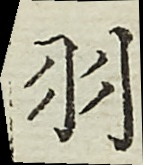羽
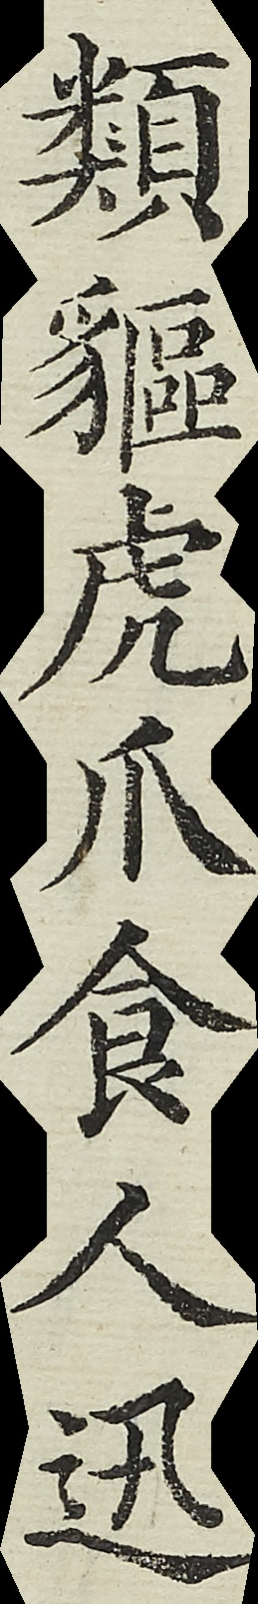類貙虎爪食人迅
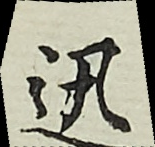迅
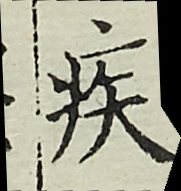疾
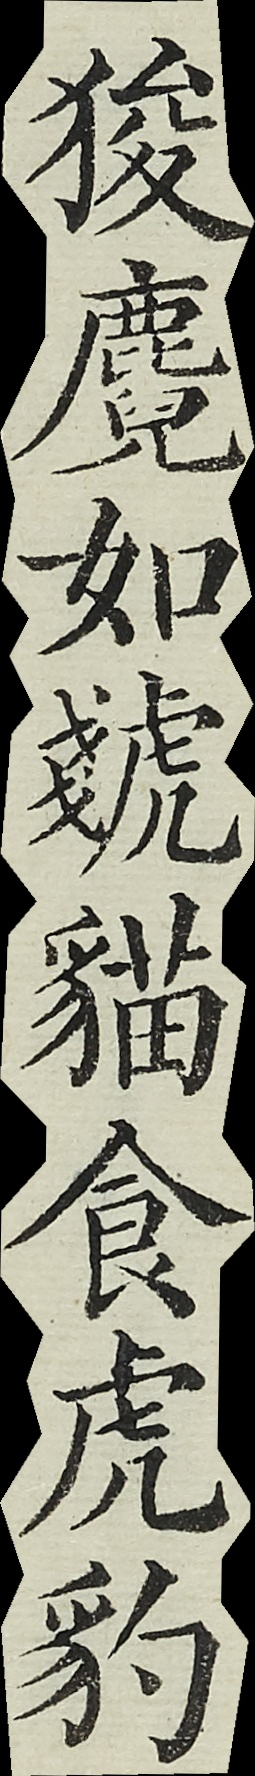狻麑如虦貓食虎豹
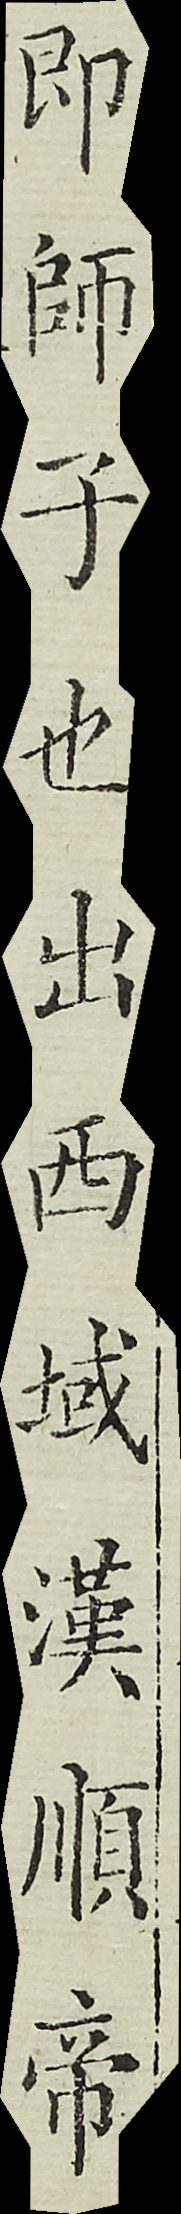即師子也出西域漢順帝
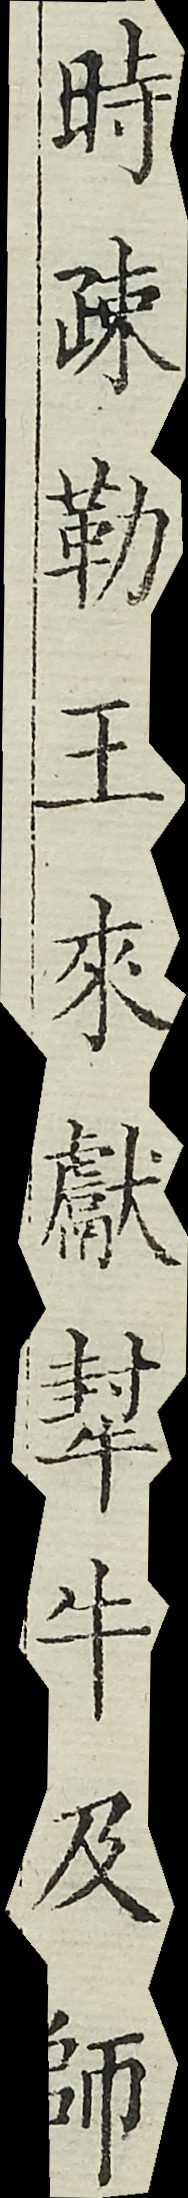時疏勒王來獻犎牛及師
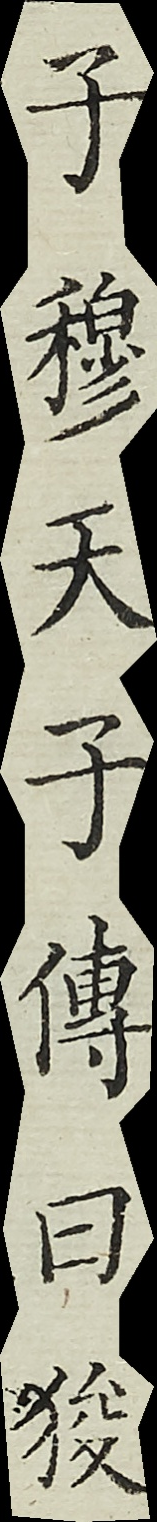子穆天子傳曰狻
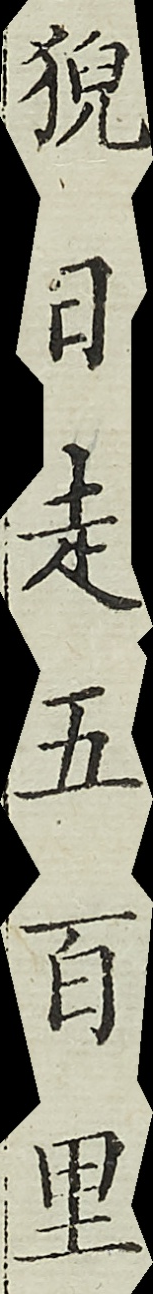猊日走五百里
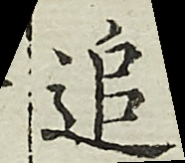追
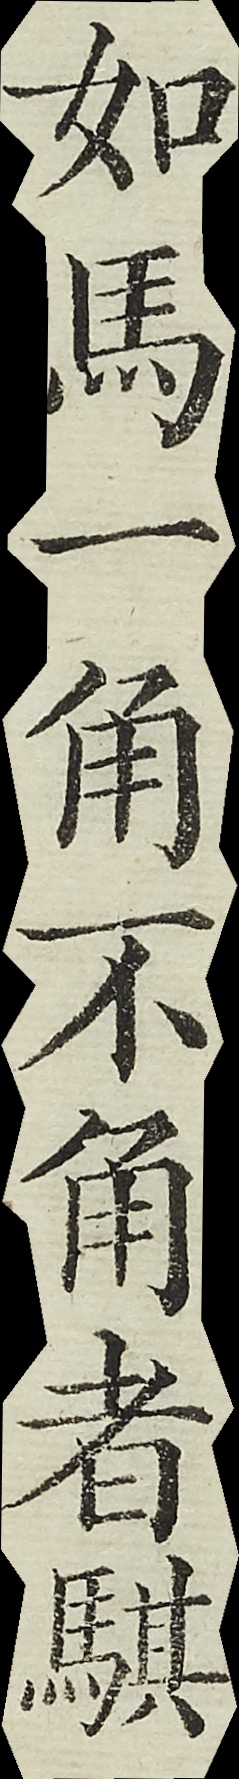如馬一角不角者騏
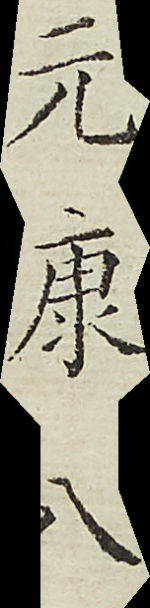元康八
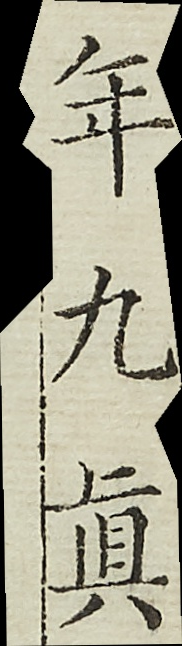年九真
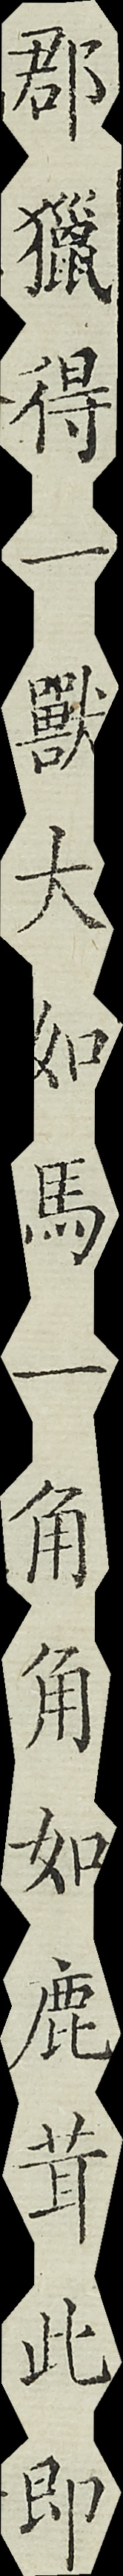郡獵得一獸大如馬一角角如鹿茸此即
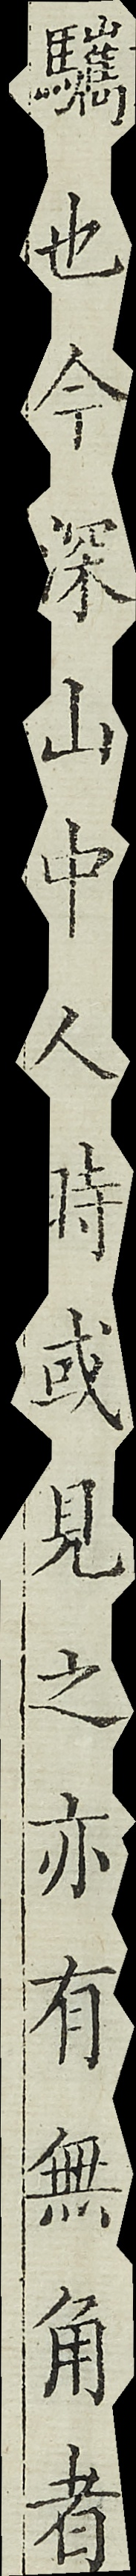驨也今深山中人時或見之亦有無角者
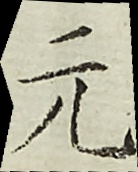元
